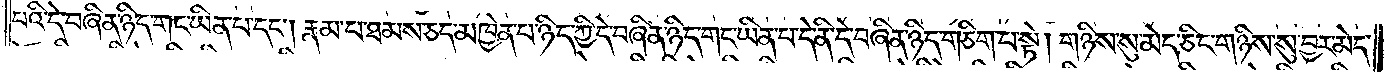པའི་དེ་བཞིན་ཉིད་གང་ཡིན་པ་དང༌། རྣམ་པ་ཐམས་ཅད་མཁྱེན་པ་ཉིད་ཀྱི་དེ་བཞིན་ཉིད་གང་ཡིན་པ་དེ་ནི་དེ་བཞིན་ཉིད་གཅིག་པ་སྟེ། གཉིས་སུ་མེད་ཅིང་གཉིས་སུ་བྱར་མེད་
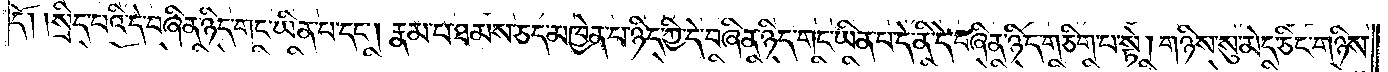དོ། །སྲིད་པའི་དེ་བཞིན་ཉིད་གང་ཡིན་པ་དང༌། རྣམ་པ་ཐམས་ཅད་མཁྱེན་པ་ཉིད་ཀྱི་དེ་བཞིན་ཉིད་གང་ཡིན་པ་དེ་ནི་དེ་བཞིན་ཉིད་གཅིག་པ་སྟེ། གཉིས་སུ་མེད་ཅིང་གཉིས་
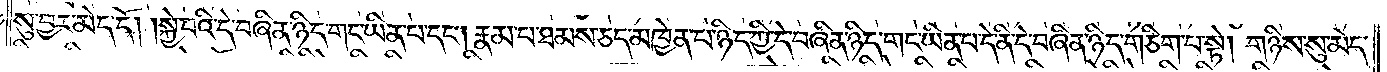སུ་བྱར་མེད་དོ། །སྐྱེ་བའི་དེ་བཞིན་ཉིད་གང་ཡིན་པ་དང༌། རྣམ་པ་ཐམས་ཅད་མཁྱེན་པ་ཉིད་ཀྱི་དེ་བཞིན་ཉིད་གང་ཡིན་པ་དེ་ནི་དེ་བཞིན་ཉིད་གཅིག་པ་སྟེ། གཉིས་སུ་མེད་
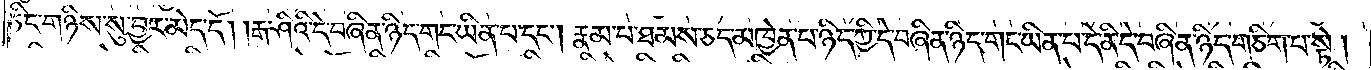ཅིང་གཉིས་སུ་བྱར་མེད་དོ། །རྒ་ཤིའི་དེ་བཞིན་ཉིད་གང་ཡིན་པ་དང༌། རྣམ་པ་ཐམས་ཅད་མཁྱེན་པ་ཉིད་ཀྱི་དེ་བཞིན་ཉིད་གང་ཡིན་པ་དེ་ནི་དེ་བཞིན་ཉིད་གཅིག་པ་སྟེ།
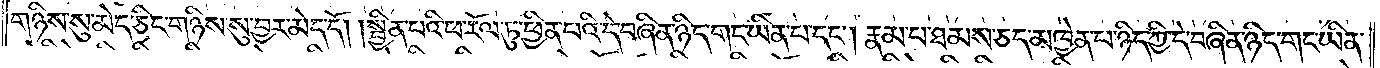གཉིས་སུ་མེད་ཅིང་གཉིས་སུ་བྱར་མེད་དོ། །སྦྱིན་པའི་ཕ་རོལ་ཏུ་ཕྱིན་པའི་དེ་བཞིན་ཉིད་གང་ཡིན་པ་དང༌། རྣམ་པ་ཐམས་ཅད་མཁྱེན་པ་ཉིད་ཀྱི་དེ་བཞིན་ཉིད་གང་ཡིན་
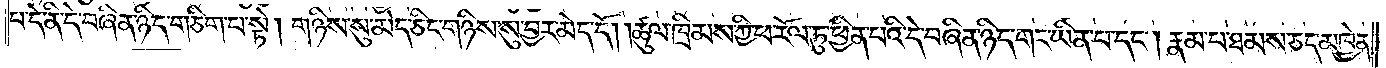པ་དེ་ནི་དེ་བཞིན་ཉིད་གཅིག་པ་སྟེ། གཉིས་སུ་མེད་ཅིང་གཉིས་སུ་བྱར་མེད་དོ། །ཚུལ་ཁྲིམས་ཀྱི་ཕ་རོལ་ཏུ་ཕྱིན་པའི་དེ་བཞིན་ཉིད་གང་ཡིན་པ་དང༌། རྣམ་པ་ཐམས་ཅད་མཁྱེན་
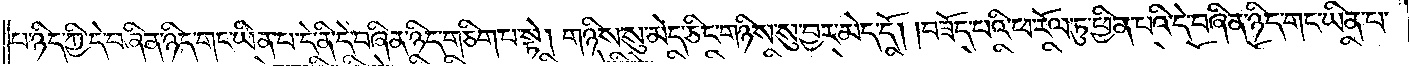པ་ཉིད་ཀྱི་དེ་བཞིན་ཉིད་གང་ཡིན་པ་དེ་ནི་དེ་བཞིན་ཉིད་གཅིག་པ་སྟེ། གཉིས་སུ་མེད་ཅིང་གཉིས་སུ་བྱར་མེད་དོ། །བཟོད་པའི་ཕ་རོལ་ཏུ་ཕྱིན་པའི་དེ་བཞིན་ཉིད་གང་ཡིན་པ་
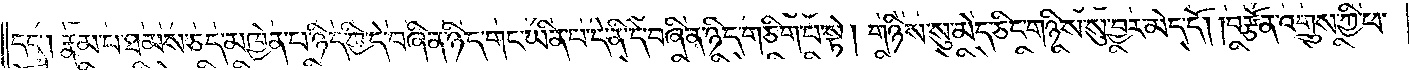དང༌། རྣམ་པ་ཐམས་ཅད་མཁྱེན་པ་ཉིད་ཀྱི་དེ་བཞིན་ཉིད་གང་ཡིན་པ་དེ་ནི་དེ་བཞིན་ཉིད་གཅིག་པ་སྟེ། གཉིས་སུ་མེད་ཅིང་གཉིས་སུ་བྱར་མེད་དོ། །བརྩོན་འགྲུས་ཀྱི་ཕ་
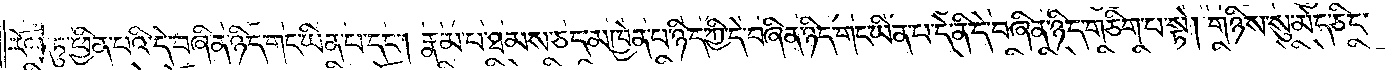རོལ་ཏུ་ཕྱིན་པའི་དེ་བཞིན་ཉིད་གང་ཡིན་པ་དང༌། རྣམ་པ་ཐམས་ཅད་མཁྱེན་པ་ཉིད་ཀྱི་དེ་བཞིན་ཉིད་གང་ཡིན་པ་དེ་ནི་དེ་བཞིན་ཉིད་གཅིག་པ་སྟེ། གཉིས་སུ་མེད་ཅིང་
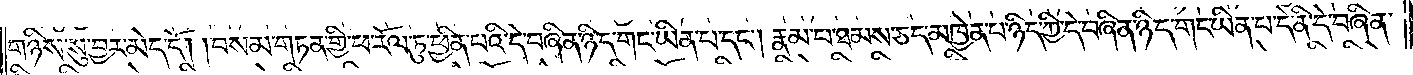གཉིས་སུ་བྱར་མེད་དོ། །བསམ་གཏན་གྱི་ཕ་རོལ་ཏུ་ཕྱིན་པའི་དེ་བཞིན་ཉིད་གང་ཡིན་པ་དང༌། རྣམ་པ་ཐམས་ཅད་མཁྱེན་པ་ཉིད་དེ་བཞིན་ཉིད་གང་ཡིན་པ་དེ་ནི་དེ་བཞིན་
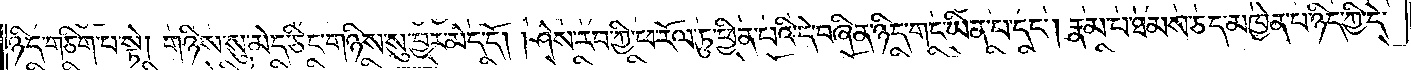ཉིད་གཅིག་པ་སྟེ། གཉིས་སུ་མེད་ཅིང་གཉིས་སུ་བྱར་མེད་དོ། །ཤེས་རབ་ཀྱི་ཕ་རོལ་ཏུ་ཕྱིན་པའི་དེ་བཞིན་ཉིད་གང་ཡིན་པ་དང༌། རྣམ་པ་ཐམས་ཅད་མཁྱེན་པ་ཉིད་ཀྱི་དེ་
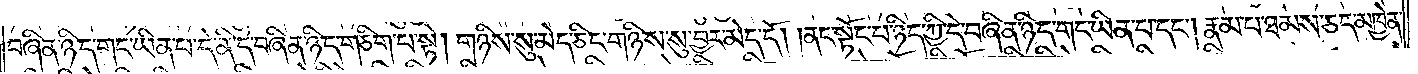བཞིན་ཉིད་གང་ཡིན་པ་དེ་ནི་དེ་བཞིན་ཉིད་གཅིག་པ་སྟེ། གཉིས་སུ་མེད་ཅིང་གཉིས་སུ་བྱར་མེད་དོ། །ནང་སྟོང་པ་ཉིད་ཀྱི་དེ་བཞིན་ཉིད་གང་ཡིན་པ་དང༌། རྣམ་པ་ཐམས་ཅད་མཁྱེན་
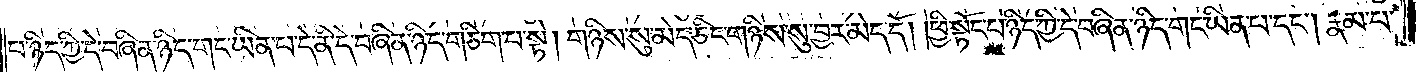པ་ཉིད་ཀྱི་དེ་བཞིན་ཉིད་གང་ཡིན་པ་དེ་ནི་དེ་བཞིན་ཉིད་གཅིག་པ་སྟེ། གཉིས་སུ་མེད་ཅིང་གཉིས་སུ་བྱར་མེད་དོ། །ཕྱི་སྟོང་པ་ཉིད་ཀྱི་དེ་བཞིན་ཉིད་གང་ཡིན་པ་དང༌། རྣམ་པ་
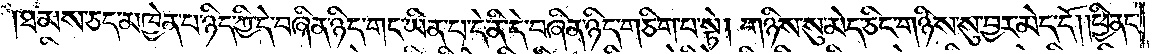ཐམས་ཅད་མཁྱེན་པ་ཉིད་ཀྱི་དེ་བཞིན་ཉིད་གང་ཡིན་པ་དེ་ནི་དེ་བཞིན་ཉིད་གཅིག་པ་སྟེ། གཉིས་སུ་མེད་ཅིང་གཉིས་སུ་བྱར་མེད་དོ། །ཕྱི་ནང་
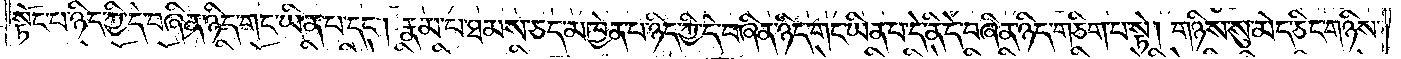སྟོང་པ་ཉིད་ཀྱི་དེ་བཞིན་ཉིད་གང་ཡིན་པ་དང༌། རྣམ་པ་ཐམས་ཅད་མཁྱེན་པ་ཉིད་ཀྱི་དེ་བཞིན་ཉིད་གང་ཡིན་པ་དེ་ནི་དེ་བཞིན་ཉིད་གཅིག་པ་སྟེ། གཉིས་སུ་མེད་ཅིང་གཉིས་
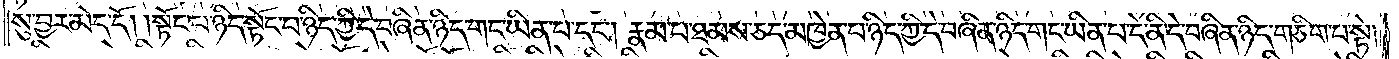སུ་བྱར་མེད་དོ། །སྟོང་པ་ཉིད་སྟོང་པ་ཉིད་ཀྱི་དེ་བཞིན་ཉིད་གང་ཡིན་པ་དང༌། རྣམ་པ་ཐམས་ཅད་མཁྱེན་པ་ཉིད་ཀྱི་དེ་བཞིན་ཉིད་གང་ཡིན་པ་དེ་ནི་དེ་བཞིན་ཉིད་གཅིག་པ་སྟེ།
